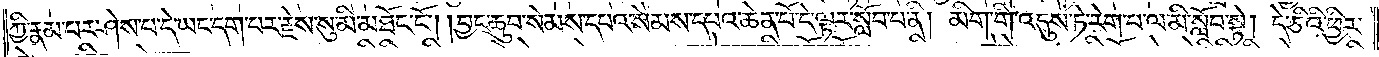ཀྱི་རྣམ་པར་ཤེས་པ་དེ་ཡང་དག་པར་རྗེས་སུ་མི་མཐོང་ངོ༌། །བྱང་ཆུབ་སེམས་དཔའ་སེམས་དཔའ་ཆེན་པོ་དེ་ལྟར་སློབ་པ་ནི། མིག་གི་འདུས་ཏེ་རེག་པ་ལ་མི་སློབ་སྟེ། དེ་ཅིའི་ཕྱིར་
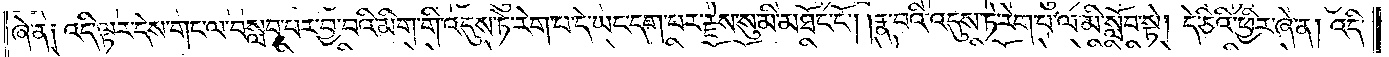ཞེ་ན། འདི་ལྟར་དེས་གང་ལ་བསླབ་པར་བྱ་བའི་མིག་གི་འདུས་ཏེ་རེག་པ་དེ་ཡང་དག་པར་རྗེས་སུ་མི་མཐོང་ངོ༌། །རྣ་བའི་འདུས་ཏེ་རེག་པ་ལ་མི་སློབ་སྟེ། དེ་ཅིའི་ཕྱིར་ཞེ་ན། འདི་
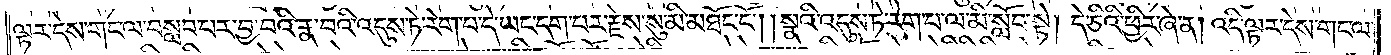ལྟར་དེས་གང་ལ་བསླབ་པར་བྱ་བའི་རྣ་བའི་འདུས་ཏེ་རེག་པ་དེ་ཡང་དག་པར་རྗེས་སུ་མི་མཐོང་ངོ༌། །སྣའི་འདུས་ཏེ་རེག་པ་ལ་མི་སློབ་སྟེ། དེ་ཅིའི་ཕྱིར་ཞེ་ན། འདི་ལྟར་དེས་གང་ལ་
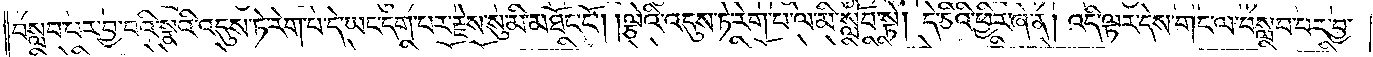བསླབ་པར་བྱ་བའི་སྣའི་འདུས་ཏེ་རེག་པ་དེ་ཡང་དག་པར་རྗེས་སུ་མི་མཐོང་ངོ༌། །ལྕེའི་འདུས་ཏེ་རེག་པ་ལ་མི་སློབ་སྟེ། དེ་ཅིའི་ཕྱིར་ཞེ་ན། འདི་ལྟར་དེས་གང་ལ་བསླབ་པར་བྱ་
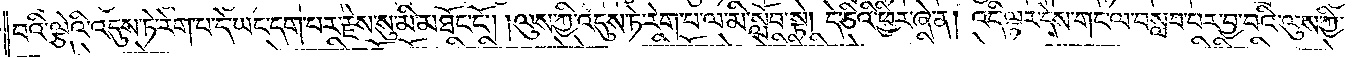བའི་ལྕེའི་འདུས་ཏེ་རེག་པ་དེ་ཡང་དག་པར་རྗེས་སུ་མི་མཐོང་ངོ༌། །ལུས་ཀྱི་འདུས་ཏེ་རེག་པ་ལ་མི་སློབ་སྟེ། དེ་ཅིའི་ཕྱིར་ཞེ་ན། འདི་ལྟར་དེས་གང་ལ་བསླབ་པར་བྱ་བའི་ལུས་ཀྱི་
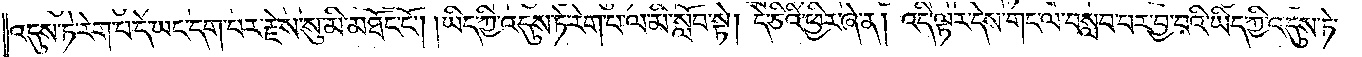འདུས་ཏེ་རེག་པ་དེ་ཡང་དག་པར་རྗེས་སུ་མི་མཐོང་ངོ༌། །ཡིད་ཀྱི་འདུས་ཏེ་རེག་པ་ལ་མི་སློབ་སྟེ། དེ་ཅིའི་ཕྱིར་ཞེ་ན། འདི་ལྟར་དེས་གང་ལ་བསླབ་པར་བྱ་བའི་ཡིད་ཀྱི་འདུས་ཏེ་
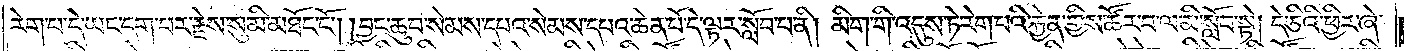རེག་པ་དེ་ཡང་དག་པར་རྗེས་སུ་མི་མཐོང་ངོ༌། །བྱང་ཆུབ་སེམས་དཔའ་སེམས་དཔའ་ཆེན་པོ་དེ་ལྟར་སློབ་པ་ནི། མིག་གི་འདུས་ཏེ་རེག་པའི་རྐྱེན་གྱིས་ཚོར་བ་ལ་མི་སློབ་སྟེ། དེ་ཅིའི་ཕྱིར་ཞེ་
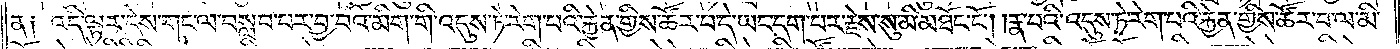ན༑ འདི་ལྟར་དེས་གང་ལ་བསླབ་པར་བྱ་བའི་མིག་གི་འདུས་ཏེ་རེག་པའི་རྐྱེན་གྱིས་ཚོར་བ་དེ་ཡང་དག་པར་རྗེས་སུ་མི་མཐོང་ངོ༌། །རྣ་བའི་འདུས་ཏེ་རེག་པའི་རྐྱེན་གྱིས་ཚོར་བ་ལ་མི་
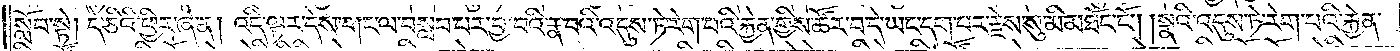སློབ་སྟེ། དེ་ཅིའི་ཕྱིར་ཞེ་ན། འདི་ལྟར་དེས་གང་ལ་བསླབ་པར་བྱ་བའི་རྣ་བའི་འདུས་ཏེ་རེག་པའི་རྐྱེན་གྱིས་ཚོར་བ་དེ་ཡང་དག་པར་རྗེས་སུ་མི་མཐོང་ངོ༌། །སྣའི་འདུས་ཏེ་རེག་པའི་རྐྱེན་
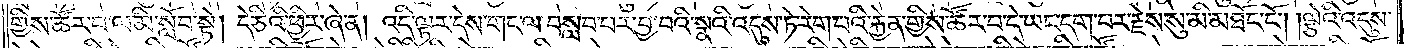གྱིས་ཚོར་བ་ལ་མི་སློབ་སྟེ། དེ་ཅིའི་ཕྱིར་ཞེ་ན། འདི་ལྟར་དེས་གང་ལ་བསླབ་པར་བྱ་བའི་སྣའི་འདུས་ཏེ་རེག་པའི་རྐྱེན་གྱིས་ཚོར་བ་དེ་ཡང་དག་པར་རྗེས་སུ་མི་མཐོང་ངོ༌། །ལྕེའི་འདུས་
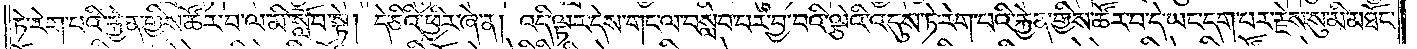ཏེ་རེག་པའི་རྐྱེན་གྱིས་ཚོར་བ་ལ་མི་སློབ་སྟེ། དེ་ཅིའི་ཕྱིར་ཞེ་ན། འདི་ལྟར་དེས་གང་ལ་བསླབ་པར་བྱ་བའི་ལྕེའི་འདུས་ཏེ་རེག་པའི་རྐྱེན་གྱིས་ཚོར་བ་དེ་ཡང་དག་པར་རྗེས་སུ་མི་མཐོང་
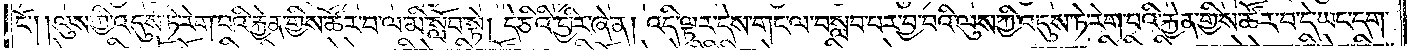ངོ༌། །ལུས་ཀྱི་འདུས་ཏེ་རེག་པའི་རྐྱེན་གྱིས་ཚོར་བ་ལ་མི་སློབ་སྟེ། དེ་ཅིའི་ཕྱིར་ཞེ་ན། འདི་ལྟར་དེས་གང་ལ་བསླབ་པར་བྱ་བའི་ལུས་ཀྱི་འདུས་ཏེ་རེག་པའི་རྐྱེན་གྱིས་ཚོར་བ་དེ་ཡང་དག་
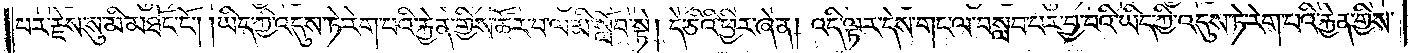པར་རྗེས་སུ་མི་མཐོང་ངོ༌། །ཡིད་ཀྱི་འདུས་ཏེ་རེག་པའི་རྐྱེན་གྱིས་ཚོར་བ་ལ་མི་སློབ་སྟེ། དེ་ཅིའི་ཕྱིར་ཞེ་ན། འདི་ལྟར་དེས་གང་ལ་བསླབ་པར་བྱ་བའི་ཡིད་ཀྱི་འདུས་ཏེ་རེག་པའི་རྐྱེན་གྱིས་
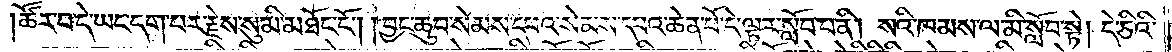ཚོར་བ་དེ་ཡང་དག་པར་རྗེས་སུ་མི་མཐོང་ངོ༌། །བྱང་ཆུབ་སེམས་དཔའ་སེམས་དཔའ་ཆེན་པོ་དེ་ལྟར་སློབ་པ་ནི། སའི་ཁམས་ལ་མི་སློབ་སྟེ། དེ་ཅིའི་
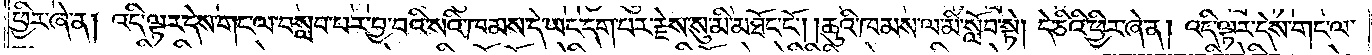ཕྱིར་ཞེ་ན། འདི་ལྟར་དེས་གང་ལ་བསླབ་པར་བྱ་བའི་སའི་ཁམས་དེ་ཡང་དག་པར་རྗེས་སུ་མི་མཐོང་ངོ༌། །ཆུའི་ཁམས་ལ་མི་སློབ་སྟེ། དེ་ཅིའི་ཕྱིར་ཞེ་ན། འདི་ལྟར་དེས་གང་ལ་
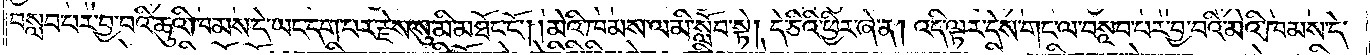བསླབ་པར་བྱ་བའི་ཆུའི་ཁམས་དེ་ཡང་དག་པར་རྗེས་སུ་མི་མཐོང་ངོ༌། །མེའི་ཁམས་ལ་མི་སློབ་སྟེ། དེ་ཅིའི་ཕྱིར་ཞེ་ན། འདི་ལྟར་དེས་གང་ལ་བསླབ་པར་བྱ་བའི་མེའི་ཁམས་དེ་
